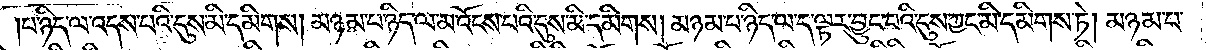པ་ཉིད་ལ་འདས་པའི་དུས་མི་དམིགས། མཉམ་པ་ཉིད་ལ་མ་འོངས་པའི་དུས་མི་དམིགས། མཉམ་པ་ཉིད་ལ་ད་ལྟར་བྱུང་བའི་དུས་ཀྱང་མི་དམིགས་ཏེ། མཉམ་པ་
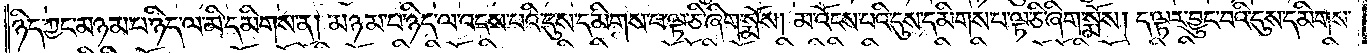ཉིད་ཀྱང་མཉམ་པ་ཉིད་ལ་མི་དམིགས་ན། མཉམ་པ་ཉིད་ལ་འདས་པའི་དུས་དམིགས་པ་ལྟ་ཅི་ཞིག་སྨོས། མ་འོངས་པའི་དུས་དམིགས་པ་ལྟ་ཅི་ཞིག་སྨོས། ད་ལྟར་བྱུང་བའི་དུས་དམིགས་
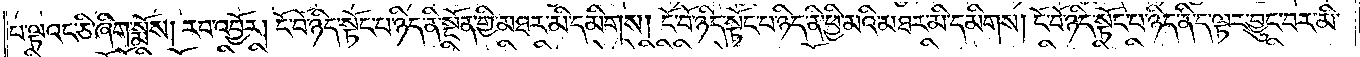པ་ལྟའང་ཅི་ཞིག་སྨོས། རབ་འབྱོར། ངོ་བོ་ཉིད་སྟོང་པ་ཉིད་ནི་སྔོན་གྱི་མཐར་མི་དམིགས། ངོ་བོ་ཉིད་སྟོང་པ་ཉིད་ནི་ཕྱི་མའི་མཐར་མི་དམིགས། ངོ་བོ་ཉིད་སྟོང་པ་ཉིད་ནི་ད་ལྟར་བྱུང་བར་མི་
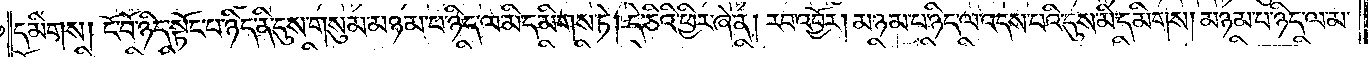དམིགས། ངོ་བོ་ཉིད་སྟོང་པ་ཉིད་ནི་དུས་གསུམ་མཉམ་པ་ཉིད་ལ་མི་དམིགས་ཏེ། དེ་ཅིའི་ཕྱིར་ཞེ་ན། རབ་འབྱོར། མཉམ་པ་ཉིད་ལ་འདས་པའི་དུས་མི་དམིགས། མཉམ་པ་ཉིད་ལ་མ་
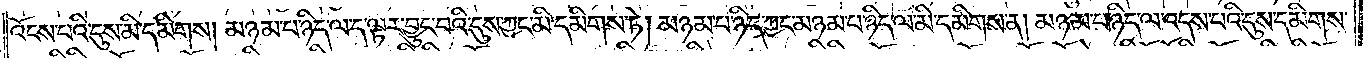འོངས་པའི་དུས་མི་དམིགས། མཉམ་པ་ཉིད་ལ་ད་ལྟར་བྱུང་བའི་དུས་ཀྱང་མི་དམིགས་ཏེ། མཉམ་པ་ཉིད་ཀྱང་མཉམ་པ་ཉིད་ལ་མི་དམིགས་ན། མཉམ་པ་ཉིད་ལ་འདས་པའི་དུས་དམིགས་
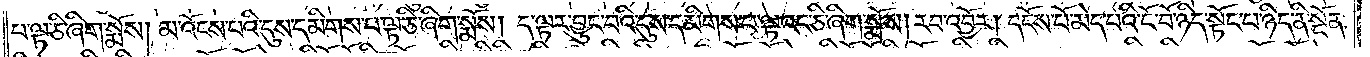པ་ལྟ་ཅི་ཞིག་སྨོས། མ་འོངས་པའི་དུས་དམིགས་པ་ལྟ་ཅི་ཞིག་སྨོས། ད་ལྟར་བྱུང་བའི་དུས་དམིགས་པ་ལྟའང་ཅི་ཞིག་སྨོས། རབ་འབྱོར། དངོས་པོ་མེད་པའི་ངོ་བོ་ཉིད་སྟོང་པ་ཉིད་ནི་སྔོན་
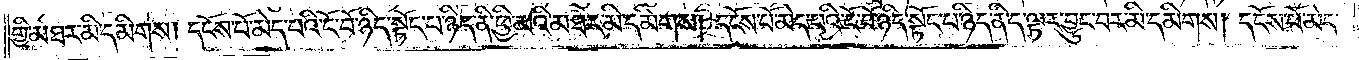གྱི་མཐར་མི་དམིགས། དངོས་པོ་མེད་པའི་ངོ་བོ་ཉིད་སྟོང་པ་ཉིད་ནི་ཕྱི་མའི་མཐར་མི་དམིགས། དངོས་པོ་མེད་པའི་ངོ་བོ་ཉིད་སྟོང་པ་ཉིད་ནི་ད་ལྟར་བྱུང་བར་མི་དམིགས། དངོས་པོ་མེད་
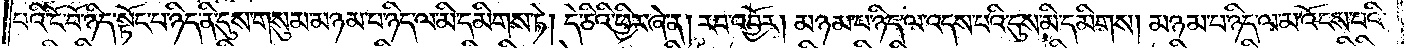པའི་ངོ་བོ་ཉིད་སྟོང་པ་ཉིད་ནི་དུས་གསུམ་མཉམ་པ་ཉིད་ལ་མི་དམིགས་ཏེ། དེ་ཅིའི་ཕྱིར་ཞེ་ན། རབ་འབྱོར། མཉམ་པ་ཉིད་ལ་འདས་པའི་དུས་མི་དམིགས། མཉམ་པ་ཉིད་ལ་མ་འོངས་པའི་
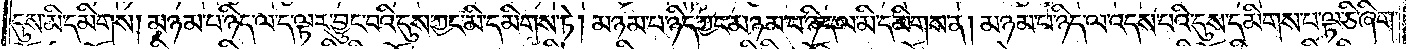དུས་མི་དམིགས། མཉམ་པ་ཉིད་ལ་ད་ལྟར་བྱུང་བའི་དུས་ཀྱང་མི་དམིགས་ཏེ། མཉམ་པ་ཉིད་ཀྱང་མཉམ་པ་ཉིད་ལ་མི་དམིགས་ན། མཉམ་པ་ཉིད་ལ་འདས་པའི་དུས་དམིགས་པ་ལྟ་ཅི་ཞིག་
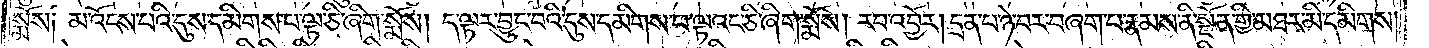སྨོས། མ་འོངས་པའི་དུས་དམིགས་པ་ལྟ་ཅི་ཞིག་སྨོས། ད་ལྟར་བྱུང་བའི་དུས་དམིགས་པ་ལྟའང་ཅི་ཞིག་སྨོས། རབ་འབྱོར། དྲན་པ་ཉེ་བར་བཞག་པ་རྣམས་ནི་སྔོན་གྱི་མཐར་མི་དམིགས།
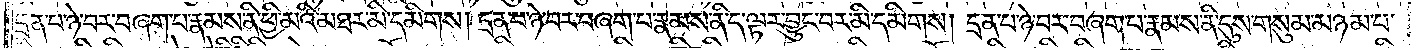དྲན་པ་ཉེ་བར་བཞག་པ་རྣམས་ནི་ཕྱི་མའི་མཐར་མི་དམིགས། དྲན་པ་ཉེ་བར་བཞག་པ་རྣམས་ནི་ད་ལྟར་བྱུང་བར་མི་དམིགས། དྲན་པ་ཉེ་བར་བཞག་པ་རྣམས་ནི་དུས་གསུམ་མཉམ་པ་
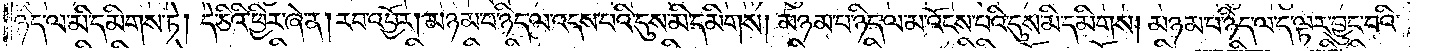ཉིད་ལ་མི་དམིགས་ཏེ། དེ་ཅིའི་ཕྱིར་ཞེ་ན། རབ་འབྱོར། མཉམ་པ་ཉིད་ལ་འདས་པའི་དུས་མི་དམིགས། མཉམ་པ་ཉིད་ལ་མ་འོངས་པའི་དུས་མི་དམིགས། མཉམ་པ་ཉིད་ལ་ད་ལྟར་བྱུང་བའི་
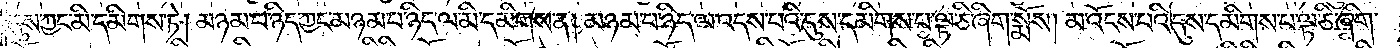དུས་ཀྱང་མི་དམིགས་ཏེ། མཉམ་པ་ཉིད་ཀྱང་མཉམ་པ་ཉིད་ལ་མི་དམིགས་ན། མཉམ་པ་ཉིད་ལ་འདས་པའི་དུས་དམིགས་པ་ལྟ་ཅི་ཞིག་སྨོས། མ་འོངས་པའི་དུས་དམིགས་པ་ལྟ་ཅི་ཞིག་
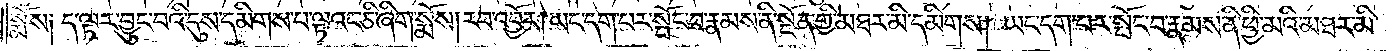སྨོས། ད་ལྟར་བྱུང་བའི་དུས་དམིགས་པ་ལྟའང་ཅི་ཞིག་སྨོས། རབ་འབྱོར། ཡང་དག་པར་སྤོང་བ་རྣམས་ནི་སྔོན་གྱི་མཐར་མི་དམིགས། ཡང་དག་པར་སྤོང་བ་རྣམས་ནི་ཕྱི་མའི་མཐར་མི་
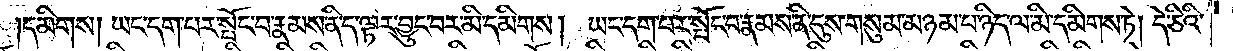དམིགས། ཡང་དག་པར་སྤོང་བ་རྣམས་ནི་ད་ལྟར་བྱུང་བར་མི་དམིགས། ཡང་དག་པར་སྤོང་བ་རྣམས་ནི་དུས་གསུམ་མཉམ་པ་ཉིད་ལ་མི་དམིགས་ཏེ། དེ་ཅིའི་
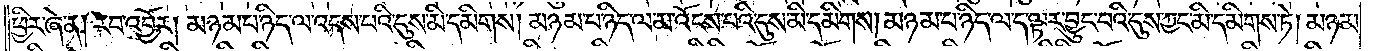ཕྱིར་ཞེ་ན། རབ་འབྱོར། མཉམ་པ་ཉིད་ལ་འདས་པའི་དུས་མི་དམིགས། མཉམ་པ་ཉིད་ལ་མ་འོངས་པའི་དུས་མི་དམིགས། མཉམ་པ་ཉིད་ལ་ད་ལྟར་བྱུང་བའི་དུས་ཀྱང་མི་དམིགས་ཏེ། མཉམ་
